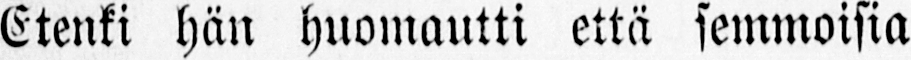Etenki hän huomautti että semmoisia
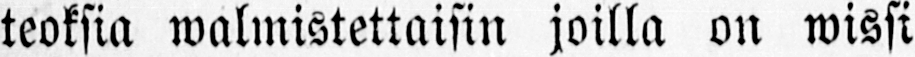teoksia walmistettaisin joilla on wissi
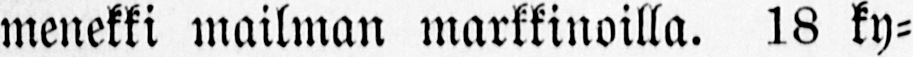menekki mailman markkinoilla. 18 ky-
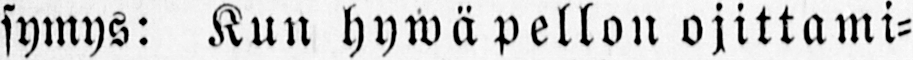symys: Kun hywä pellon ojittami-
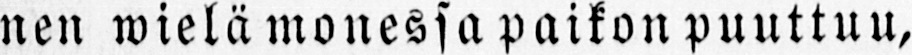nen wielä monessa paikon puuttuu,
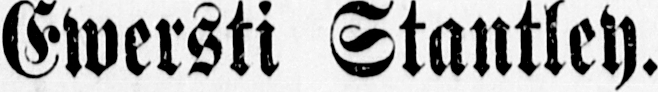Ewersti Stantley.
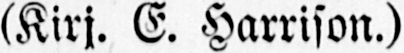(Kirj. E. Harrison.)
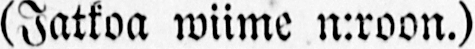(Jatkoa wiime n:roon.)
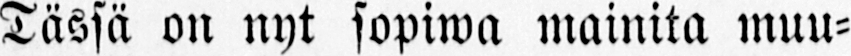Tässä on nyt sopiwa mainita muu-
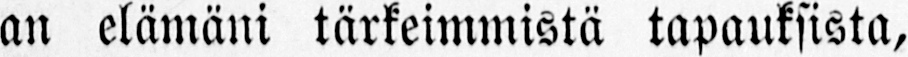an elämäni tärkeimmistä tapauksista,
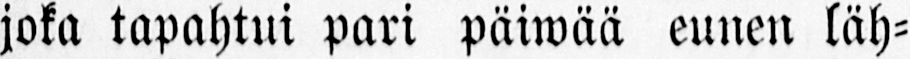joka tapahtui pari päiwää eunen läh-
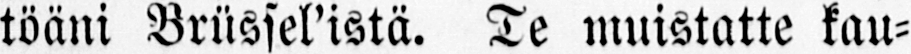töäni Brüssel’istä. Te muistatte kau-
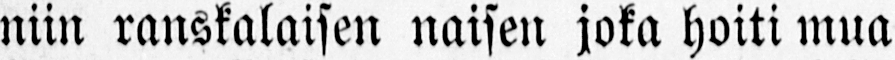niin ranskalaisen naisen joka hoiti mua
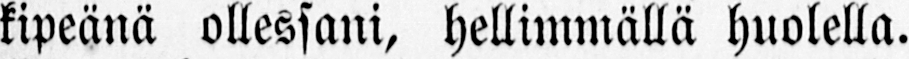kipeänä ollessani, hellimmällä huolella.
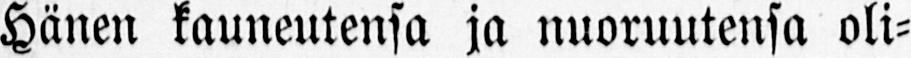Hänen kauneutensa ja nuoruutensa oli-
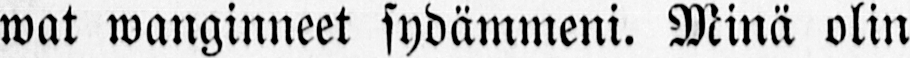wat wanginneet sydämmeni. Minä olin
